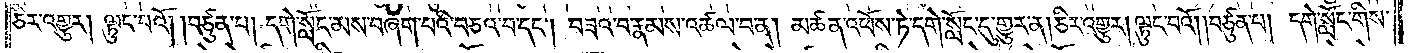ཅིར་འགྱུར། ལྟུང་པའོ། །བཙུན་པ། དགེ་སློང་མས་བཞག་པའི་བཅའ་བ་དང༌། བཟའ་བ་རྣམས་འཚལ་བ་ན། མཚན་འཕོས་ཏེ་དགེ་སློང་དུ་གྱུར་ན། ཅིར་འགྱུར། ལྟུང་བའོ། །བཙུན་པ། དགེ་སློང་གིས་
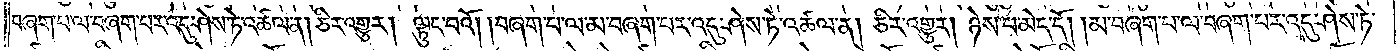བཞག་པ་ལ་བཞག་པར་འདུ་ཤེས་ཏེ་འཚལ་ན། ཅིར་འགྱུར། ལྟུང་བའོ། །བཞག་པ་ལ་མ་བཞག་པར་འདུ་ཤེས་ཏེ་འཚལ་ན། ཅིར་འགྱུར། ཉེས་པ་མེད་དོ། །མ་བཞག་པ་ལ་བཞག་པར་འདུ་ཤེས་ཏེ་
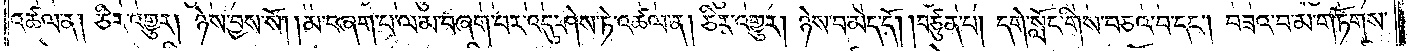འཚལ་ན། ཅིར་འགྱུར། ཉེས་བྱས་སོ། །མ་བཞག་པ་ལ་མ་བཞག་པར་འདུ་ཤེས་ཏེ་འཚལ་ན། ཅིར་འགྱུར། ཉེས་པ་མེད་དོ། །བཙུན་པ། དགེ་སློང་གིས་བཅའ་བ་དང༌། བཟའ་བ་མ་གཏོགས་
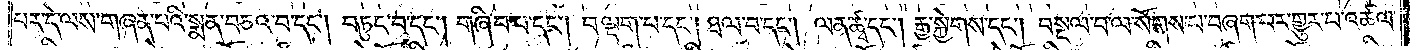པར་དེ་ལས་གཞན་པའི་སྨན་བཅའ་བ་དང༌། བཏུང་བ་དང༌། གཞིབ་པ་དང༌། བལྡག་པ་དང༌། ཐལ་བ་དང༌། ལན་ཚྭ་དང༌། རྒྱ་སྐྱེགས་དང༌། བསྔལ་བ་ལ་སོགས་པ་བཞག་པར་གྱུར་པ་འཚལ་
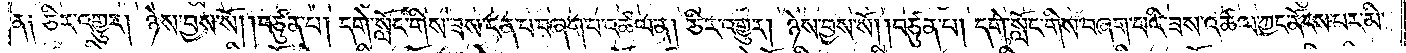ན༑ ཅིར་འགྱུར། ཉེས་བྱས་སོ། །བཙུན་པ། དགེ་སློང་གིས་ཟས་ངན་པ་བཞག་པ་འཚལ་ན། ཅིར་འགྱུར། ཉེས་བྱས་སོ། །བཙུན་པ། དགེ་སློང་གིས་བཞག་པའི་ཟས་འཚལ་ཀྱང་ནོངས་པར་མི་
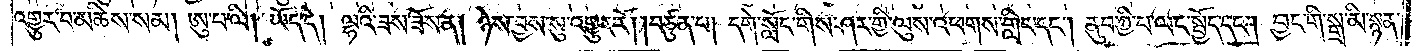འགྱུར་བ་མཆིས་སམ། ཨུ་པ་ལི། ཡོད་དེ། ལྷའི་ཟས་ཟོས་ན། ཉེས་བྱས་སུ་འགྱུར་རོ། །བཙུན་པ། དགེ་སློང་གིས་ཤར་གྱི་ལུས་འཕགས་གླིང་དང༌། ནུབ་ཀྱི་བ་ལང་སྤྱོད་དང༌། བྱང་གི་སྒྲ་མི་སྙན་
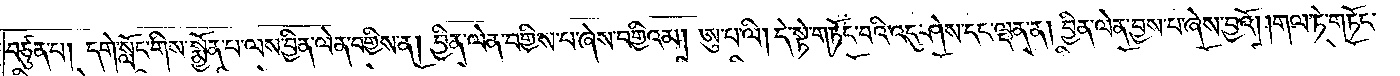བཙུན་པ། དགེ་སློང་གིས་སྨྱོན་པ་ལས་བྱིན་ལེན་བགྱིས་ན། བྱིན་ལེན་བགྱིས་པ་ཞེས་བགྱིའམ། ཨུ་པ་ལི། དེ་སྟེ་གཏོང་བའི་འདུ་ཤེས་དང་ལྡན་ན། བྱིན་ལེན་བྱས་པ་ཞེས་བྱའོ། །གལ་ཏེ་གཏོང་
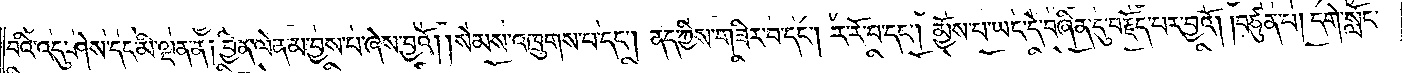བའི་འདུ་ཤེས་དང་མི་ལྡན་ན། བྱིན་ལེན་མ་བྱས་པ་ཞེས་བྱའོ། །སེམས་འཁྲུགས་པ་དང༌། ནད་ཀྱིས་གཟིར་བ་དང༌། ར་རོ་བ་དང༌། མྱོས་པ་ཡང་དེ་བཞིན་དུ་བརྗོད་པར་བྱའོ། །བཙུན་པ། དགེ་སློང་
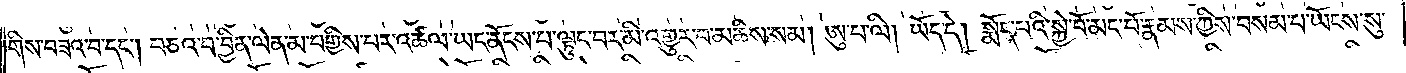གིས་བཟའ་བ་དང༌། བཅའ་བ་བྱིན་ལེན་མ་བགྱིས་པར་འཚལ་ཡང་ནོངས་པ་ལྟུང་བར་མི་འགྱུར་བ་མཆིས་སམ། ཨུ་པ་ལི། ཡོད་དེ། སྨོད་པའི་སྐྱེ་བོ་མང་པོ་རྣམས་ཀྱིས་བསམ་པ་ཡོངས་སུ་
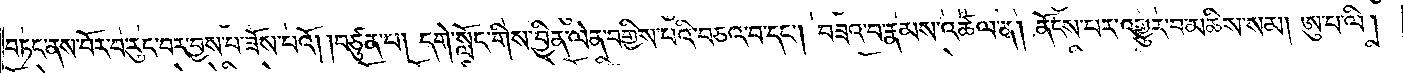བཏང་ནས་བོར་བ་རུང་བར་བྱས་པ་ཟོས་པའོ། །བཙུན་པ། དགེ་སློང་གིས་བྱིན་ལེན་བགྱིས་པའི་བཅའ་བ་དང༌། བཟའ་བ་རྣམས་འཚལ་ན། ནོངས་པར་འགྱུར་བ་མཆིས་སམ། ཨུ་པ་ལི།
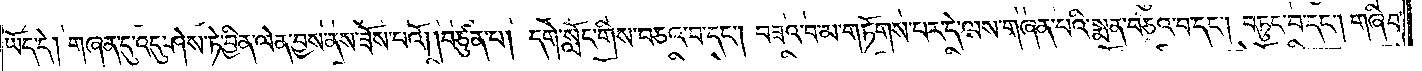ཡོད་དེ། གཞན་དུ་འདུ་ཤེས་ཏེ་བྱིན་ལེན་བྱས་ནས་ཟོས་པའོ། །བཙུན་པ། དགེ་སློང་གིས་བཅའ་བ་དང༌། བཟའ་བ་མ་གཏོགས་པར་དེ་ལས་གཞན་པའི་སྨན་བཅའ་བ་དང༌། བཏུང་བ་དང༌། གཞིབ་
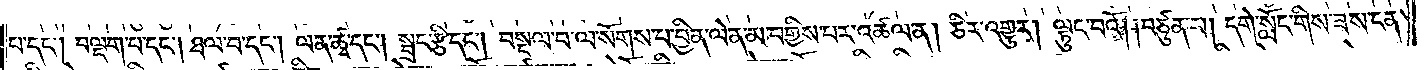པ་དང༌། བལྡག་པ་དང༌། ཐལ་བ་དང༌། ལན་ཚྭ་དང༌། སྦྲང་རྩི་དང༌། བསྔལ་བ་ལ་སོགས་པ་བྱིན་ལེན་མ་བགྱིས་པར་འཚལ་ན། ཅིར་འགྱུར། ལྟུང་བའོ། །བཙུན་པ། དགེ་སློང་གིས་ཟས་ངན་
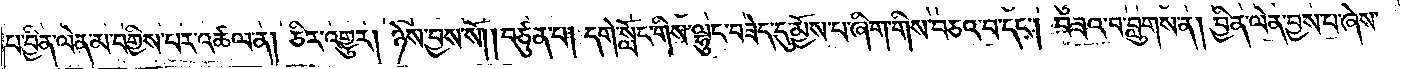པ་བྱིན་ལེན་མ་བགྱིས་པར་འཚལ་ན། ཅིར་འགྱུར། ཉེས་བྱས་སོ། །བཙུན་པ། དགེ་སློང་གིས་ལྷུང་བཟེད་དུ་མྱོས་པ་ཞིག་གིས་བཅའ་བ་དང༌། བཟའ་བ་བླུགས་ན། བྱིན་ལེན་བྱས་པ་ཞེས་
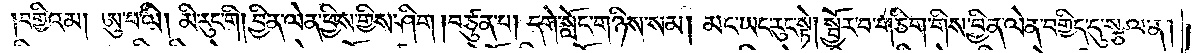བགྱིའམ། ཨུ་པ་ལི། མི་རུང་གི། བྱིན་ལེན་ཕྱིས་གྱིས་ཤིག །བཙུན་པ། དགེ་སློང་གཉིས་སམ། མང་ཡང་རུང་སྟེ། སྦྱོར་བ་གཅིག་གིས་བྱིན་ལེན་བགྱིད་དུ་སྩལ་ན།
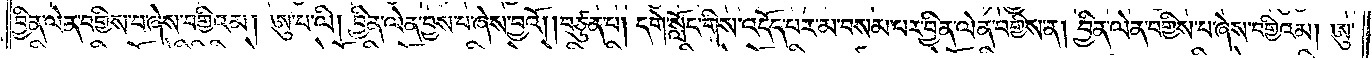བྱིན་ལེན་བགྱིས་པ་ཞེས་བགྱིའམ། ཨུ་པ་ལི། བྱིན་ལེན་བྱས་པ་ཞེས་བྱའོ། །བཙུན་པ། དགེ་སློང་གིས་འདོད་པར་མ་བསམ་པར་བྱིན་ལེན་བགྱིས་ན། བྱིན་ལེན་བགྱིས་པ་ཞེས་བགྱིའམ། ཨུ་
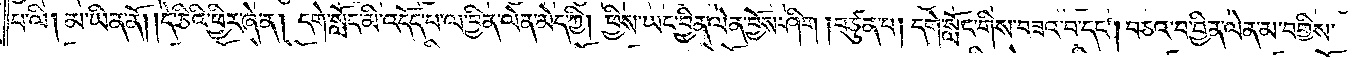པ་ལི། མ་ཡིན་ནོ། །དེ་ཅིའི་ཕྱིར་ཞེ་ན། དགེ་སློང་མི་འདོད་པ་ལ་བྱིན་ལེན་མེད་ཀྱི། ཕྱིས་ཡང་བྱིན་ལེན་བྱོས་ཤིག །བཙུན་པ། དགེ་སློང་གིས་བཟའ་བ་དང༌། བཅའ་བ་བྱིན་ལེན་མ་བགྱིས་
